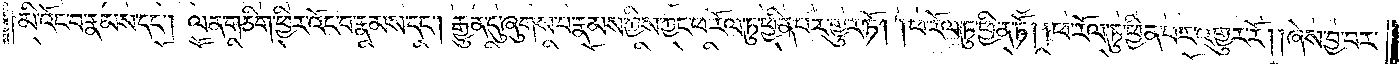མི་འོང་བ་རྣམས་དང༌། ལན་གཅིག་ཕྱིར་འོང་བ་རྣམས་དང༌། རྒྱུན་དུ་ཞུགས་པ་རྣམས་ཀྱིས་ཀྱང་ཕ་རོལ་ཏུ་ཕྱིན་པར་གྱུར་ཏོ། །ཕ་རོལ་ཏུ་ཕྱིན་ཏོ། །ཕ་རོལ་ཏུ་ཕྱིན་པར་འགྱུར་རོ། ཞེས་བྱ་བར་
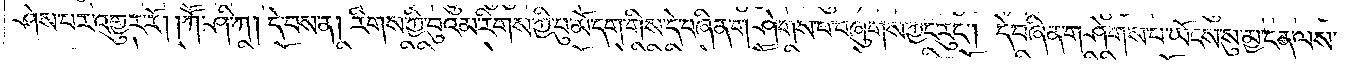ཤེས་པར་འགྱུར་རོ༎ ཀཽ་ཤི་ཀ། དེ་བས་ན། རིགས་ཀྱི་བུའམ་རིགས་ཀྱི་བུ་མོ་དག་གིས་དེ་བཞིན་གཤེགས་པ་བཞུགས་ཀྱང་རུང༌། དེ་བཞིན་གཤེགས་པ་ཡོངས་སུ་མྱ་ངན་ལས་
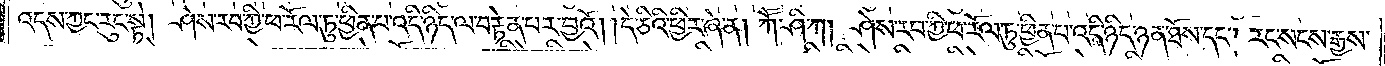འདས་ཀྱང་རུང་སྟེ། ཤེས་རབ་ཀྱི་ཕ་རོལ་ཏུ་ཕྱིན་པ་འདི་ཉིད་ལ་བརྟེན་པར་བྱའོ། །དེ་ཅིའི་ཕྱིར་ཞེ་ན། ཀཽ་ཤི་ཀ། ཤེས་རབ་ཀྱི་ཕ་རོལ་ཏུ་ཕྱིན་པ་འདི་ཉིད་ཉན་ཐོས་དང༌། རང་སངས་རྒྱས་
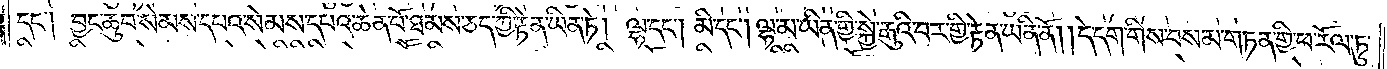དང༌། བྱང་ཆུབ་སེམས་དཔའ་སེམས་དཔའ་ཆེན་པོ་ཐམས་ཅད་ཀྱི་རྟེན་ཡིན་ཏེ། ལྷ་དང༌། མི་དང༌། ལྷ་མ་ཡིན་གྱི་སྐྱེ་རྒུའི་བར་གྱི་རྟེན་ཡིན་ནོ། །དེ་དག་གིས་བསམ་གཏན་གྱི་ཕ་རོལ་ཏུ་
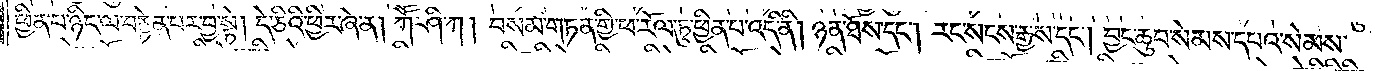ཕྱིན་པ་ཉིད་ལ་བརྟེན་པར་བྱ་སྟེ། དེ་ཅིའི་ཕྱིར་ཞེ་ན། ཀཽ་ཤི་ཀ། བསམ་གཏན་གྱི་ཕ་རོལ་ཏུ་ཕྱིན་པ་འདི་ནི། ཉན་ཐོས་དང༌། རང་སངས་རྒྱས་དང༌། བྱང་ཆུབ་སེམས་དཔའ་སེམས་
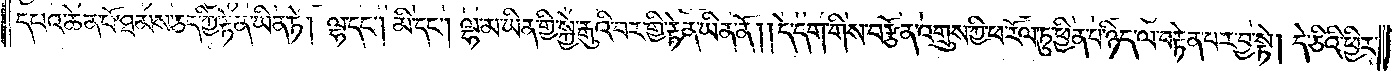དཔའ་ཆེན་པོ་ཐམས་ཅད་ཀྱི་རྟེན་ཡིན་ཏེ། ལྷ་དང༌། མི་དང༌། ལྷ་མ་ཡིན་གྱི་སྐྱེ་རྒུའི་བར་གྱི་རྟེན་ཡིན་ནོ། །དེ་དག་གིས་བརྩོན་འགྲུས་ཀྱི་ཕ་རོལ་ཏུ་ཕྱིན་པ་ཉིད་ལ་བརྟེན་པར་བྱ་སྟེ། དེ་ཅིའི་ཕྱིར་
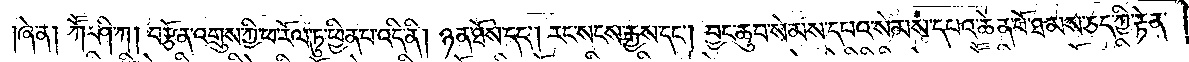ཞེ་ན། ཀཽ་ཤི་ཀ། བརྩོན་འགྲུས་ཀྱི་ཕ་རོལ་ཏུ་ཕྱིན་པ་འདི་ནི། ཉན་ཐོས་དང༌། རང་སངས་རྒྱས་དང༌། བྱང་ཆུབ་སེམས་དཔའ་སེམས་དཔའ་ཆེན་པོ་ཐམས་ཅད་ཀྱི་རྟེན་
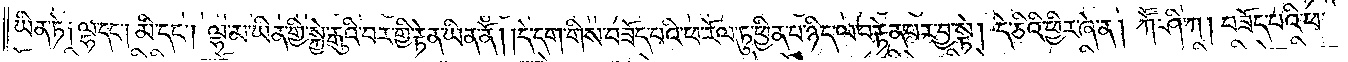ཡིན་ཏེ། །ལྷ་དང༌། མི་དང༌། ལྷ་མ་ཡིན་གྱི་སྐྱེ་རྒུའི་བར་གྱི་རྟེན་ཡིན་ནོ། །དེ་དག་གིས་བཟོད་པའི་ཕ་རོལ་ཏུ་ཕྱིན་པ་ཉིད་ལ་བརྟེན་པར་བྱ་སྟེ། དེ་ཅིའི་ཕྱིར་ཞེ་ན། ཀཽ་ཤི་ཀ། བཟོད་པའི་ཕ་
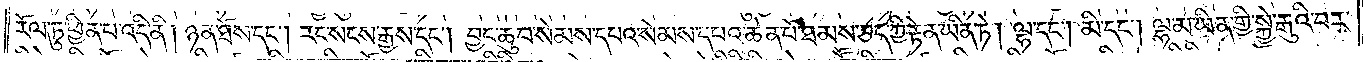རོལ་ཏུ་ཕྱིན་པ་འདི་ནི་ཉན་ཐོས་དང༌། རང་སངས་རྒྱས་དང༌། བྱང་ཆུབ་སེམས་དཔའ་སེམས་དཔའ་ཆེན་པོ་ཐམས་ཅད་ཀྱི་རྟེན་ཡིན་ཏེ། ལྷ་དང༌། མི་དང༌། ལྷ་མ་ཡིན་གྱི་སྐྱེ་རྒུའི་བར་
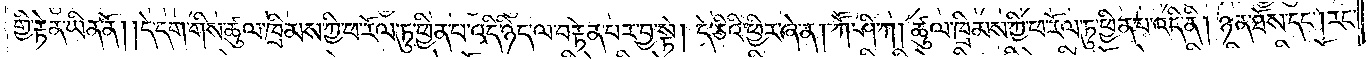གྱི་རྟེན་ཡིན་ནོ། །དེ་དག་གིས་ཚུལ་ཁྲིམས་ཀྱི་ཕ་རོལ་ཏུ་ཕྱིན་པ་འདི་ཉིད་ལ་བརྟེན་པར་བྱ་སྟེ། དེ་ཅིའི་ཕྱིར་ཞེ་ན། ཀཽ་ཤི་ཀ། ཚུལ་ཁྲིམས་ཀྱི་ཕ་རོལ་ཏུ་ཕྱིན་པ་འདི་ནི། ཉན་ཐོས་དང༌། རང་
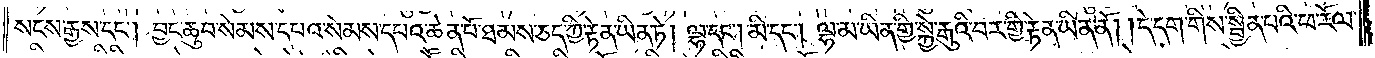སངས་རྒྱས་དང༌། བྱང་ཆུབ་སེམས་དཔའ་སེམས་དཔའ་ཆེན་པོ་ཐམས་ཅད་ཀྱི་རྟེན་ཡིན་ཏེ། ལྷ་དང༌། མི་དང༌། ལྷ་མ་ཡིན་གྱི་སྐྱེ་རྒུའི་བར་གྱི་རྟེན་ཡིན་ནོ། །དེ་དག་གིས་སྦྱིན་པའི་ཕ་རོལ་
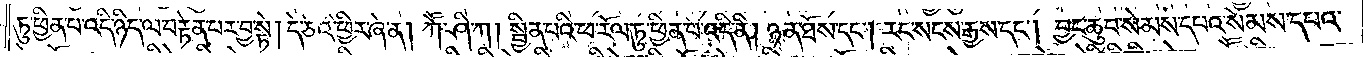ཏུ་ཕྱིན་པ་འདི་ཉིད་ལ་བརྟེན་པར་བྱ་སྟེ། དེ་ཅིའི་ཕྱིར་ཞེ་ན། ཀཽ་ཤི་ཀ། སྦྱིན་པའི་ཕ་རོལ་ཏུ་ཕྱིན་པ་འདི་ནི། ཉན་ཐོས་དང༌། རང་སངས་རྒྱས་དང༌། བྱང་ཆུབ་སེམས་དཔའ་སེམས་དཔའ་
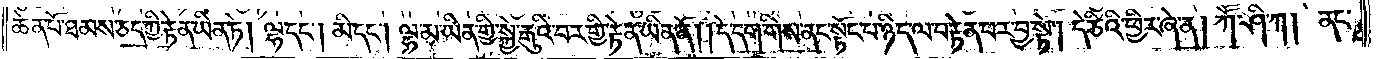ཆེན་པོ་ཐམས་ཅད་ཀྱི་རྟེན་ཡིན་ཏེ། ལྷ་དང༌། མི་དང༌། ལྷ་མ་ཡིན་གྱི་སྐྱེ་རྒུའི་བར་གྱི་རྟེན་ཡིན་ནོ། །དེ་དག་གིས་ནང་སྟོང་པ་ཉིད་ལ་བརྟེན་པར་བྱ་སྟེ། དེ་ཅིའི་ཕྱིར་ཞེ་ན། ཀཽ་ཤི་ཀ། ནང་
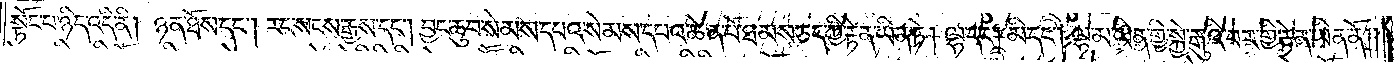སྟོང་པ་ཉིད་འདི་ནི། ཉན་ཐོས་དང༌། རང་སངས་རྒྱས་དང༌། བྱང་ཆུབ་སེམས་དཔའ་སེམས་དཔའ་ཆེན་པོ་ཐམས་ཅད་ཀྱི་རྟེན་ཡིན་ཏེ། ལྷ་དང༌། མི་དང༌། ལྷ་མ་ཡིན་གྱི་སྐྱེ་རྒུའི་བར་གྱི་རྟེན་ཡིན་ནོ། །
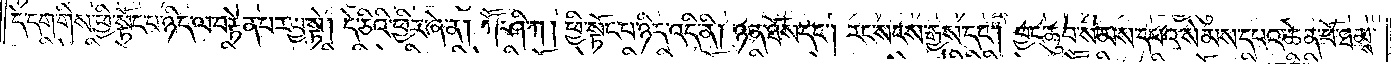དེ་དག་གིས་ཕྱི་སྟོང་པ་ཉིད་ལ་བརྟེན་པར་བྱ་སྟེ། དེ་ཅིའི་ཕྱིར་ཞེ་ན། ཀཽ་ཤི་ཀ། ཕྱི་སྟོང་པ་ཉིད་འདི་ནི། ཉན་ཐོས་དང༌། རང་སངས་རྒྱས་དང༌། བྱང་ཆུབ་སེམས་དཔའ་སེམས་དཔའ་ཆེན་པོ་ཐམས་
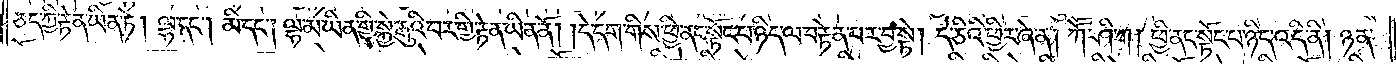ཅད་ཀྱི་རྟེན་ཡིན་ཏེ། ལྷ་དང༌། མི་དང༌། ལྷ་མ་ཡིན་གྱི་སྐྱེ་རྒུའི་བར་གྱི་རྟེན་ཡིན་ནོ། །དེ་དག་གིས་ཕྱི་ནང་སྟོང་པ་ཉིད་ལ་བརྟེན་པར་བྱ་སྟེ། དེ་ཅིའི་ཕྱིར་ཞེ་ན། ཀཽ་ཤི་ཀ། ཕྱི་ནང་སྟོང་པ་ཉིད་འདི་ནི། ཉན་
